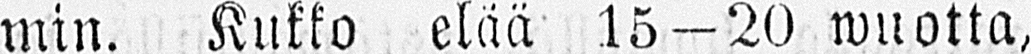min. Kukko elää 15 — 20 wuotta,
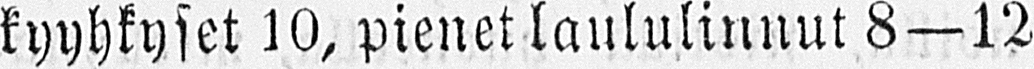kyyhkyset 10, pienet laululinnut 8—12
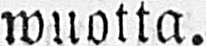wuotta.
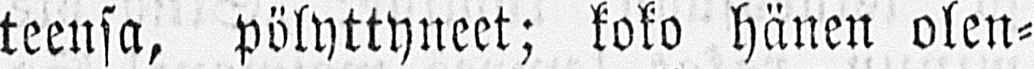teensa, pölyttyneet; koko hänen olen-
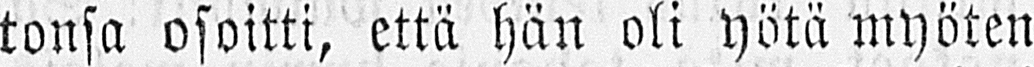tonsa osoitti, että hän oli yötä myöten
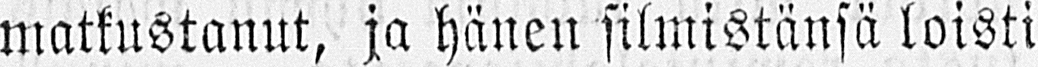matkustanut, ja hänen silmistänsä loisti
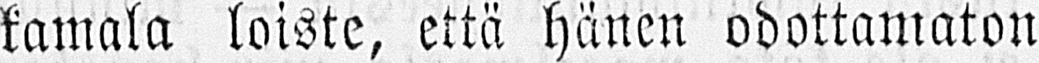kamala loiste, että hänen odottamaton
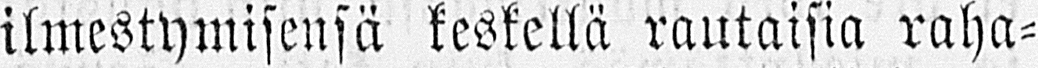ilmestymisensä leskellä rautaisia raha-
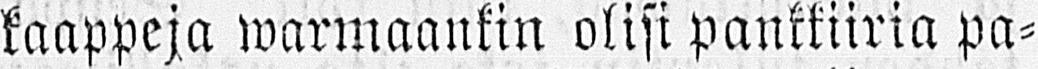kaappeja warmaankin olisi pankkiiria pa-
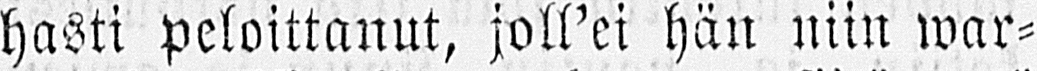hasti peloittanut, joll'ei hän niin war-
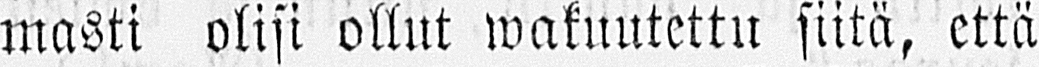masti olisi ollut wakuutettu siitä, että
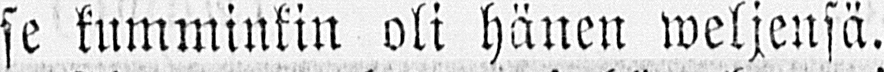se kumminkin oli hänen weljensä.
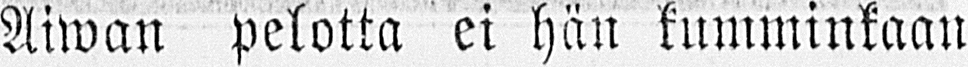Aiwan pelotta ei hän kumminkaan
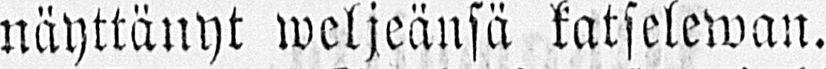näyttänyt weljeänsä katselewan.
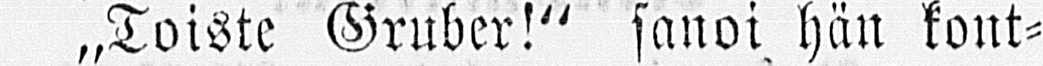˶Toiste Gruber!" sanoi hän kont-
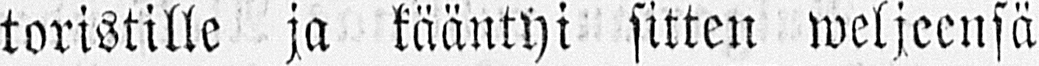toristille ja kääntyi sitten weljeensä
